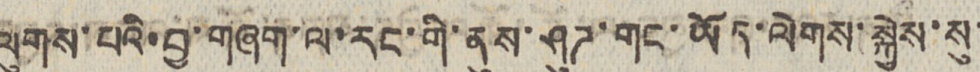ལུགས་པའི་བྱ་གཞག་ལ་རང་གི་ནུས་ཤུཊ་གང་ཡོད་ལེགས་སྐྱེས་སུ་
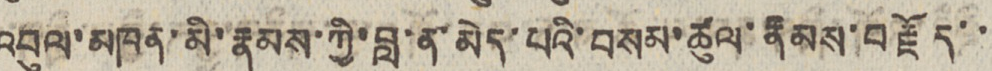འབུལ་མཁན་མི་རྣམས་ཀྱི་བླ་ན་མེད་པའི་བསམ་ཚུལ་རྣམས་བརྗོད་་
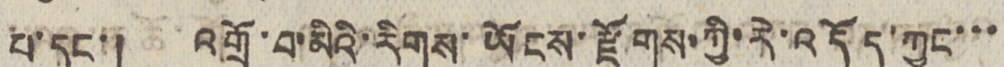པ་དང་། འགྲོ་བ་མིའི་རིགས་ཡོངས་རྫོགས་ཀྱི་རེ་འདོད་ཀྱང་་་
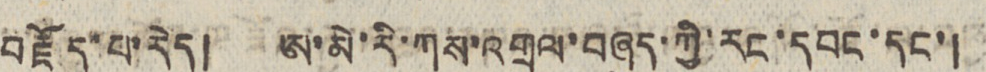བརྗོད་པ་རེད། ཨ་མེ་རི་ཀས་འགྲུལ་བཞུད་ཀྱི་རང་དབང་དང་།
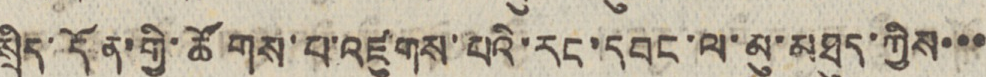སྲིད་དོན་གྱི་ཚོགས་པ་འཛུགས་པའི་རང་དབང་ལ་མུ་མཐུད་ཀྱིས་་་
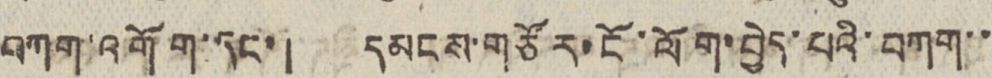བཀག་འགོག་དང་། དམངས་གཙོར་ངོ་ལོག་བྱེད་པའི་བཀག་་
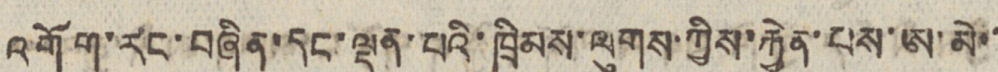འགོག་རང་བཞིན་དང་ལྡན་པའི་ཁྲིམས་ལུགས་ཀྱིས་རྐྱེན་པས་ཨ་མེ་་
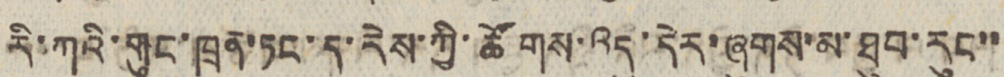རི་ཀའི་གུང་ཁྲན་ཏང་ད་རེས་ཀྱི་ཚོགས་འདུ་དེར་ཞུགས་མ་ཐུབ་རུང་་
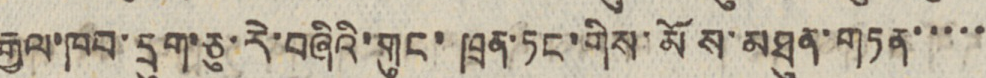རྒྱལ་ཁབ་དྲུག་ཅུ་རེ་བཞིའི་གུང་ཁྲན་ཏང་གིས་མོས་མཐུན་གཏན་་་་་
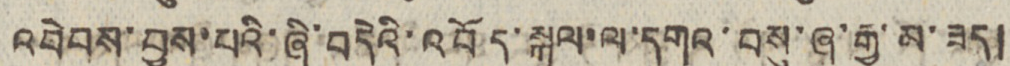འབེབས་བྱས་པའི་ཞི་བདེའི་འབོད་སྐུལ་ལ་དགའ་བསུ་ཞུ་རྒྱུ་མ་ཟད།
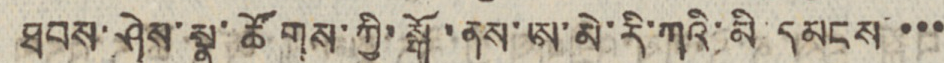ཐབས་ཤེས་སྣ་ཚོགས་ཀྱི་སྒོ་ནས་ཨ་མེ་རི་ཀའི་མི་དམངས་་་་
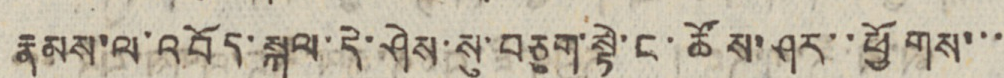རྣམས་ལ་འབོད་སྐུལ་དེ་ཤེས་སུ་བཅུག་སྟེ་ང་ཚོས་ཤར་་ཕྱོགས་་་
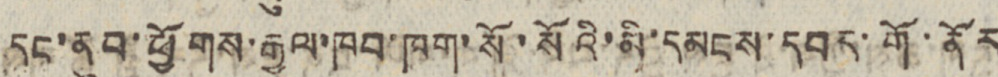དང་ནུབ་ཕྱོགས་རྒྱལ་ཁབ་ཁག་སོ་སོའི་མི་དམངས་དབར་གོ་ནོར
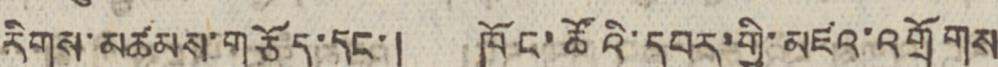རིགས་མཚམས་གཅོད་དང་། ཁོང་ཚོའི་དབར་གྱི་མཛའ་འགྲོགས
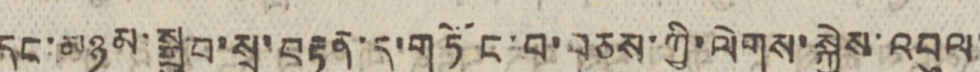དང་མཉམ་སྒྲུབ་སྲ་བརྟན་དུ་གཏོང་བ་བཅས་ཀྱི་ལེགས་སྐྱེས་འབུལ་
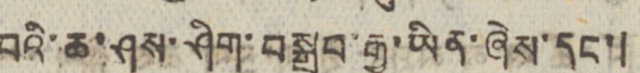བའི་ཆ་ཤས་ཤིག་བསྒྲུབ་རྒྱུ་ཡིན་ཞེས་དང་།
